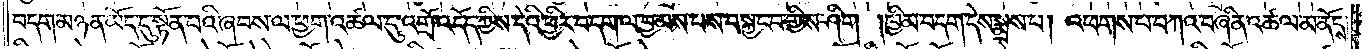བདག་མཉན་ཡོད་དུ་སྟོན་པའི་ཞབས་ལ་ཕྱག་འཚལ་དུ་འགྲོ་འདོད་ཀྱིས་དེའི་ཕྱིར་བདག་ལ་བྱམས་པས་བསྐྱང་བ་གྱིས་ཤིག །ཁྱིམ་བདག་དེས་སྨྲས་པ། འཕགས་པ་བཀའ་བཞིན་འཚལ་མ་ནོངས་
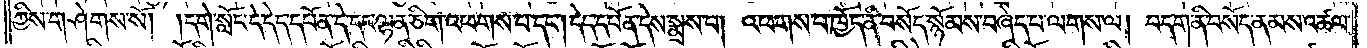ཀྱིས་གཤེགས་སོ། །དགེ་སློང་དེ་དེད་དཔོན་དེ་དང་ལྷན་ཅིག་འཕགས་པ་དང༌། དེད་དཔོན་དེས་སྨྲས་པ། འཕགས་པ་ཁྱོད་ནི་བསོད་སྙོམས་བཞེད་པ་ལགས་ལ། བདག་ནི་བསོད་ནམས་འཚལ་
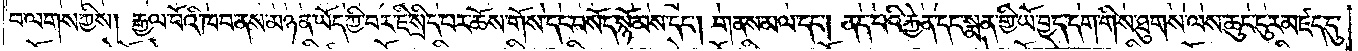བ་ལགས་ཀྱིས། རྒྱལ་པོའི་ཁབ་ནས་མཉན་ཡོད་ཀྱི་བར་ཇི་སྲིད་པར་ཆོས་གོས་དང་བསོད་སྙོམས་དང༌། གནས་མལ་དང༌། ནད་པའི་རྐྱེན་དང་སྨན་གྱི་ཡོ་བྱད་དག་གིས་ཐུགས་ལས་ཆུང་ངུར་མཛད་དུ་
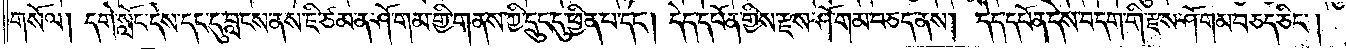གསོལ། དགེ་སློང་དེས་དང་དུ་བླངས་ནས་ཇི་ཙམ་ན་ཤོ་གམ་གྱི་གནས་ཀྱི་དྲུང་དུ་ཕྱིན་པ་དང༌། དེད་དཔོན་གྱིས་རྫས་ཤོ་གམ་བཅད་ནས། དེད་དཔོན་དེས་བདག་གི་རྫས་ཤོ་གམ་བཅད་ཅིང༌།
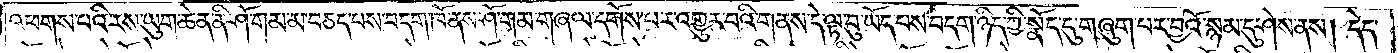འཕགས་པའི་རས་ཡུག་ཆེན་ནི་ཤོ་གམ་མ་བཅད་པས་བདག་ཁོ་ནས་ཤོ་གམ་གཞལ་དགོས་པར་འགྱུར་བའི་གནས་དེ་ལྟ་བུ་ཡོད་པས་བདག་ཉིད་ཀྱི་སྣོད་དུ་གཞུག་པར་བྱའོ་སྙམ་དུ་ཤེས་ནས། དེད་
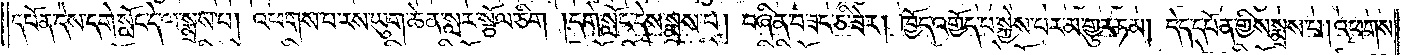དཔོན་དེས་དགེ་སློང་དེ་ལ་སྨྲས་པ། འཕགས་པ་རས་ཡུག་ཆེན་སླར་སྩོལ་ཅིག །དགེ་སློང་དེས་སྨྲས་པ། བཞིན་བཟང་ཅི་ཟེར། ཁྱོད་འགྱོད་པ་སྐྱེས་པར་མ་གྱུར་ཏམ། དེད་དཔོན་གྱིས་སྨྲས་པ། འཕགས་
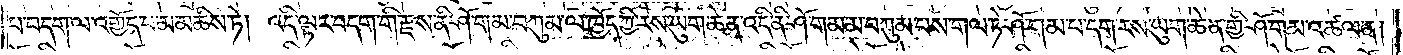པ་བདག་ལ་འགྱོད་པ་མ་མཆིས་ཏེ། འདི་ལྟར་བདག་གི་རྫས་ནི་ཤོ་གམ་བཀུམ་ལ་ཁྱོད་ཀྱི་རས་ཡུག་ཆེན་འདི་ནི་ཤོ་གམ་མ་བཀུམ་པས་གལ་ཏེ་ཤོ་གམ་པ་དག་རས་ཡུག་ཆེན་གྱི་ཤོ་གམ་འཚལ་ན།
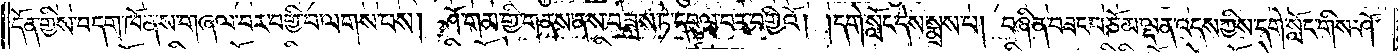དོན་གྱིས་བདག་ཁོ་ནས་གཞལ་བར་བགྱི་བ་ལགས་པས། ཤོ་གམ་གྱི་གནས་ནས་བཟླས་ཏེ་དབུལ་བར་བགྱིའོ། །དགེ་སློང་དེས་སྨྲས་པ། བཞིན་བཟང་བཅོམ་ལྡན་འདས་ཀྱིས་དགེ་སློང་གིས་ཤོ་
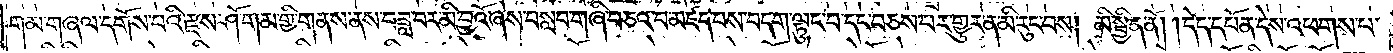གམ་གཞལ་དགོས་པའི་རྫས་ཤོ་གམ་གྱི་གནས་ནས་བཟླ་བར་མི་བྱའོ་ཞེས་བསླབ་གཞི་བཅའ་བ་མཛད་པས་བདག་ལྟུང་བ་དང་བཅས་པར་གྱུར་ན་མི་རུང་བས། མི་སྦྱིན་ནོ། །དེད་དཔོན་དེས་འཕགས་པ་
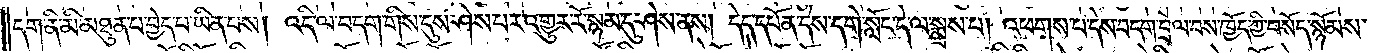དག་ནི་མི་མཐུན་པ་བྱེད་པ་ཡིན་པས། འདི་ལ་བདག་གིས་དུས་ཤེས་པར་འགྱུར་རོ་སྙམ་དུ་ཤེས་ནས། དེད་དཔོན་དེས་དགེ་སློང་དེ་ལ་སྨྲས་པ། འཕགས་པ་དེས་བདག་བྲེལ་བས་ཁྱོད་ཀྱི་བསོད་སྙོམས་
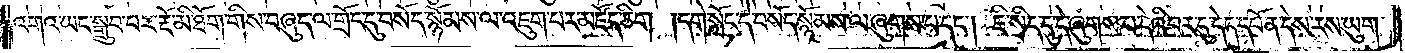འགའ་ཡང་སྒྲུབ་པར་རྔོ་མི་ཐོག་གིས་བཞུད་ལ་གྲོང་དུ་བསོད་སྙོམས་ལ་འཇུག་པར་མཛོད་ཅིག །དགེ་སློང་དེ་བསོད་སྙོམས་ལ་ཞུགས་པ་དང༌། ཇི་སྲིད་དུ་དེ་ཞུགས་པ་དེའི་བར་དུ་དེད་དཔོན་དེས་རས་ཡུག་
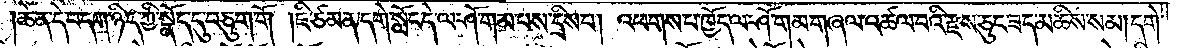ཆེན་དེ་བདག་ཉིད་ཀྱི་སྣོད་དུ་བཅུག་གོ །ཇི་ཙམ་ན་དགེ་སློང་དེ་ལ་ཤོ་གམ་པས་དྲིས་པ། འཕགས་པ་ཁྱོད་ལ་ཤོ་གམ་གཞལ་འཚལ་བའི་རྫས་ཅུང་ཟད་མཆིས་སམ། དགེ་
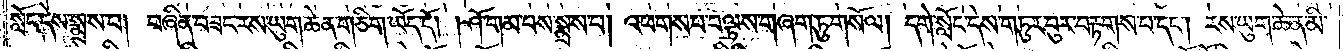སློང་དེས་སྨྲས་པ། བཞིན་བཟང་རས་ཡུག་ཆེན་གཅིག་ཡོད་དོ། །ཤོ་གམ་པས་སྨྲས་པ། འཕགས་པ་བལྟས་གཞག་ཏུ་གསོལ། དགེ་སློང་དེས་གཏུར་བུར་བརྟགས་པ་དང༌། རས་ཡུག་ཆེན་མི་
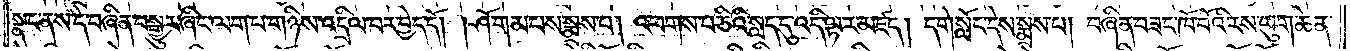སྣང་ནས་དེ་བཞིན་བསྒྱུར་ཞིང་ལག་པ་གཉིས་འདྲིལ་བར་བྱེད་དོ། །ཤོ་གམ་པས་སྨྲས་པ། འཕགས་པ་ཅིའི་སླད་དུ་འདི་ལྟར་མཛད། དགེ་སློང་དེས་སྨྲས་པ། བཞིན་བཟང་ཁོ་བོའི་རས་ཡུག་ཆེན་
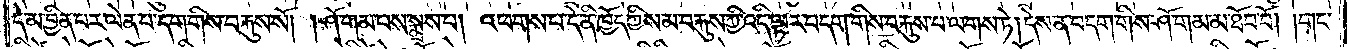དེ་མ་བྱིན་པར་ལེན་པ་དག་གིས་བརྐུས་སོ། །ཤོ་གམ་པས་སྨྲས་པ། འཕགས་པ་དེ་ནི་ཁྱོད་ཀྱིས་མ་བརྐུས་ཀྱི་འདི་ལྟར་བདག་གིས་བརྐུས་པ་ལགས་ཏེ། དེས་ན་བདག་གིས་ཤོ་གམ་མ་ཐོབ་བོ། །གང་
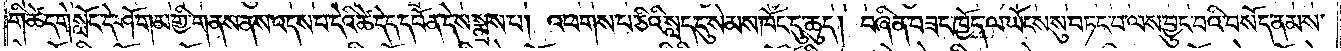གི་ཚེ་དགེ་སློང་དེ་ཤོ་གམ་གྱི་གནས་ནས་འདས་པ་དེའི་ཚེ་དེད་དཔོན་དེས་སྨྲས་པ། འཕགས་པ་ཅིའི་སླད་དུ་སེམས་ཁོང་དུ་ཆུད། བཞིན་བཟང་ཁྱོད་ལ་ཡོངས་སུ་བཏང་བ་ལས་བྱུང་བའི་བསོད་ནམས་
